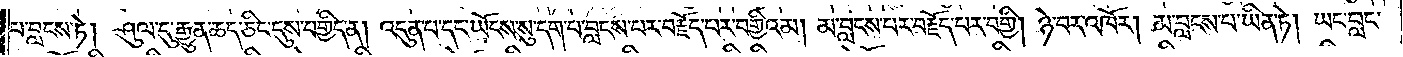པ་བླངས་ཏེ། ཤུལ་དུ་རྒྱུན་ཆད་ཅིང་དུས་བགྱིད་ན། འདུན་པ་དང་ཡོངས་སུ་དག་བ་བླངས་པར་བརྗོད་པར་བགྱིའམ། མ་བླངས་པར་བརྗོད་པར་བགྱི། ཉེ་བར་འཁོར། མ་བླངས་པ་ཡིན་ཏེ། ཡང་བླང་
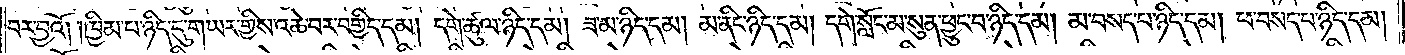བར་བྱའོ། །ཁྱིམ་པ་ཉིད་དུ་གཡར་གྱིས་འཆེ་བར་བགྱིད་དམ། དགེ་ཚུལ་ཉིད་དམ། ཟ་མ་ཉིད་དམ། མ་ནིང་ཉིད་དམ། དགེ་སློང་མ་སུན་ཕྱུང་བ་ཉིད་དམ། མ་བསད་པ་ཉིད་དམ། ཕ་བསད་པ་ཉིད་དམ།
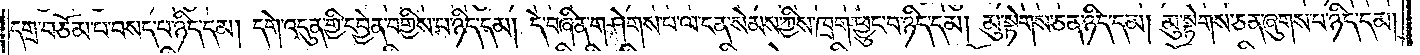དགྲ་བཅོམ་པ་བསད་པ་ཉིད་དམ། དགེ་འདུན་གྱི་དབྱེན་བགྱིས་པ་ཉིད་དམ། དེ་བཞིན་གཤེགས་པ་ལ་ངན་སེམས་ཀྱིས་ཁྲག་ཕྱུང་བ་ཉིད་དམ། མུ་སྟེགས་ཅན་ཉིད་དམ། མུ་སྟེགས་ཅན་ཞུགས་པ་ཉིད་དམ།
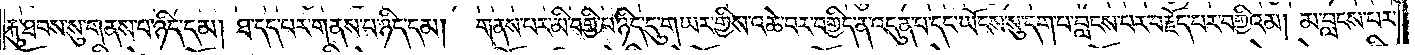རྐུ་ཐབས་སུ་གནས་པ་ཉིད་དམ། ཐ་དད་པར་གནས་པ་ཉིད་དམ། གནས་པར་མི་བགྱི་བ་ཉིད་དུ་གཡར་གྱིས་འཆེ་བར་བགྱིད་ན་འདུན་པ་དང་ཡོངས་སུ་དག་པ་བླངས་པར་བརྗོད་པར་བགྱིའམ། མ་བླངས་པར་
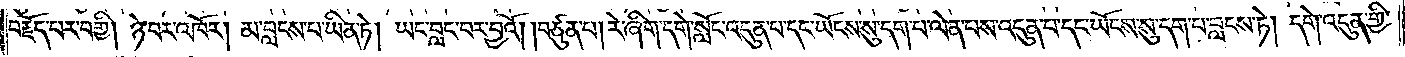བརྗོད་པར་བགྱི། ཉེ་བར་འཁོར། མ་བླངས་པ་ཡིན་ཏེ། ཡང་བླང་བར་བྱའོ། །བཙུན་པ། རེ་ཞིག་དགེ་སློང་འདུན་པ་དང་ཡོངས་སུ་དག་པ་ལེན་པས་འདུན་པ་དང་ཡོངས་སུ་དག་པ་བླངས་ཏེ། དགེ་འདུན་གྱི་
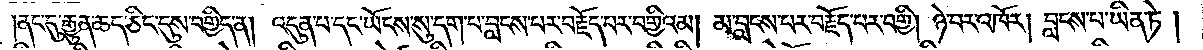ནང་དུ་རྒྱུན་ཆད་ཅིང་དུས་བགྱིད་ན། འདུན་པ་དང་ཡོངས་སུ་དག་པ་བླངས་པར་བརྗོད་པར་བགྱིའམ། མ་བླངས་པར་བརྗོད་པར་བགྱི། ཉེ་བར་འཁོར། བླངས་པ་ཡིན་ཏེ།
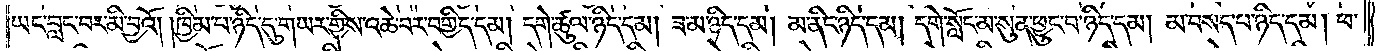ཡང་བླང་པར་མི་བྱའོ། །ཁྱིམ་པ་ཉིད་དུ་གཡར་གྱིས་འཆེ་བར་བགྱིད་དམ། དགེ་ཚུལ་ཉིད་དམ། ཟ་མ་ཉིད་དམ། མ་ནིང་ཉིད་དམ། དགེ་སློང་མ་སུན་ཕྱུང་བ་ཉིད་དམ། མ་བསད་པ་ཉིད་དམ། ཕ་
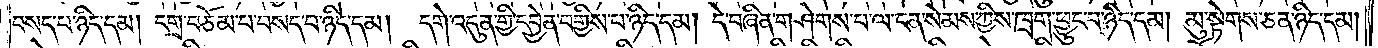བསད་པ་ཉིད་དམ། དགྲ་བཅོམ་པ་བསད་པ་ཉིད་དམ། དགེ་འདུན་གྱི་དབྱེན་བགྱིས་པ་ཉིད་དམ། དེ་བཞིན་གཤེགས་པ་ལ་ངན་སེམས་ཀྱིས་ཁྲག་ཕྱུང་བ་ཉིད་དམ། མུ་སྟེགས་ཅན་ཉིད་དམ།
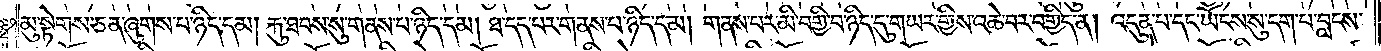མུ་སྟེགས་ཅན་ཞུགས་པ་ཉིད་དམ། རྐུ་ཐབས་སུ་གནས་པ་ཉིད་དམ། ཐ་དད་པར་གནས་པ་ཉིད་དམ། གནས་པར་མི་བགྱི་བ་ཉིད་དུ་གཡར་གྱིས་འཆེ་བར་བགྱིད་ན། འདུན་པ་དང་ཡོངས་སུ་དག་པ་བླངས་
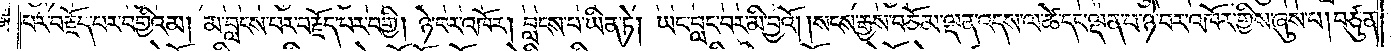པར་བརྗོད་པར་བགྱིའམ། མ་བླངས་པར་བརྗོད་པར་བགྱི། ཉེ་བར་འཁོར། བླངས་པ་ཡིན་ཏེ། ཡང་བླང་བར་མི་བྱའོ། །སངས་རྒྱས་བཅོམ་ལྡན་འདས་ལ་ཚེ་དང་ལྡན་པ་ཉེ་བར་འཁོར་གྱིས་ཞུས་པ། བཙུན་
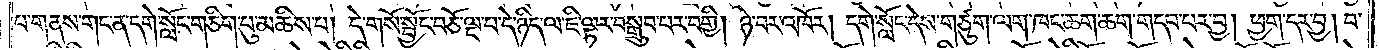པ་གནས་གང་ན་དགེ་སློང་གཅིག་པུ་མཆིས་པ། དེ་གསོ་སྦྱོང་བཅོ་ལྔ་པ་དེ་ཉིད་ལ་ཇི་ལྟར་བསྒྲུབ་པར་བགྱི། ཉེ་བར་འཁོར། དགེ་སློང་དེས་གཙུག་ལག་ཁང་ཆག་ཆག་གདབ་པར་བྱ། ཕྱག་དར་བྱ། བ་
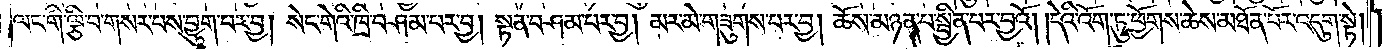ལང་གི་ལྕི་བ་གསར་པས་བྱུག་པར་བྱ། སེང་གེའི་ཁྲི་བཤམ་པར་བྱ། སྟན་བཤམ་པར་བྱ། མར་མེ་གཟུགས་པར་བྱ། ཆོས་མཉན་པ་སྦྱིན་པར་བྱའོ། །དེའི་འོག་ཏུ་ཕྱོགས་ཆེས་མཐོན་པོར་འདུག་སྟེ།
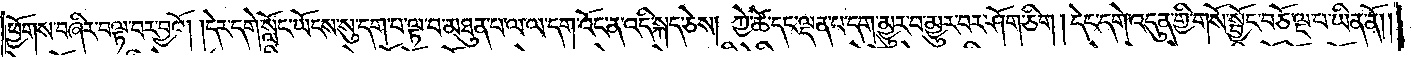ཕྱོགས་བཞིར་བལྟ་བར་བྱའོ། །དེར་དགེ་སློང་ཡོངས་སུ་དག་པ་ལྟ་བ་མཐུན་པ་ལ་ལ་དག་འོང་ན་འདི་སྐད་ཅེས། ཀྱེ་ཚེ་དང་ལྡན་པ་དག་མྱུར་བ་མྱུར་བར་ཤོག་ཅིག། དེང་དགེ་འདུན་གྱི་གསོ་སྦྱོང་བཅོ་ལྔ་པ་ཡིན་ནོ། །
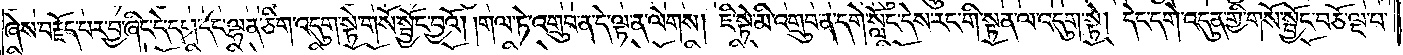ཞེས་བརྗོད་པར་བྱ་ཞིང་དེ་དག་དང་ལྷན་ཅིག་འདུག་སྟེ་གསོ་སྦྱོང་བྱའོ། །གལ་ཏེ་འགྲུབ་ན་དེ་ལྟ་ན་ལེགས། ཇི་སྟེ་མི་འགྲུབ་ན་དགེ་སློང་དེས་རང་གི་སྟན་ལ་འདུག་སྟེ། དེང་དགེ་འདུན་གྱི་གསོ་སྦྱོང་བཅོ་ལྔ་པ་
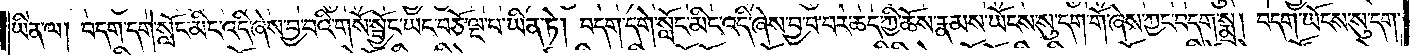ཡིན་ལ། བདག་དགེ་སློང་མིང་འདི་ཞེས་བྱ་བའི་གསོ་སྦྱོང་ཡང་བཅོ་ལྔ་པ་ཡིན་ཏེ། བདག་དགེ་སློང་མིང་འདི་ཞེས་བྱ་བ་བར་ཆད་ཀྱི་ཆོས་རྣམས་ཡོངས་སུ་དག་གོ་ཞེས་ཀྱང་བདག་སྨྲ། བདག་ཡོངས་སུ་དག་
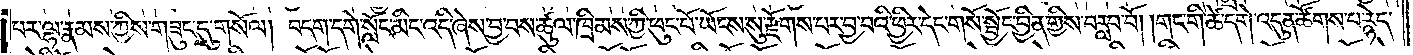པར་ལྷ་རྣམས་ཀྱིས་གཟུང་དུ་གསོལ། བདག་དགེ་སློང་མིང་འདི་ཞེས་བྱ་བས་ཚུལ་ཁྲིམས་ཀྱི་ཕུང་པོ་ཡོངས་སུ་རྫོགས་པར་བྱ་བའི་ཕྱིར་དེང་གསོ་སྦྱོང་བྱིན་གྱིས་བརླབ་བོ། །གང་གི་ཚེ་དགེ་འདུན་ཚོགས་པ་རྙེད་
